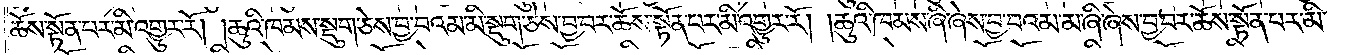ཆོས་སྟོན་པར་མི་འགྱུར་རོ། །ཆུའི་ཁམས་སྡུག་ཅེས་བྱ་བའམ་མི་སྡུག་ཅེས་བྱ་བར་ཆོས་སྟོན་པར་མི་འགྱུར་རོ། །ཆུའི་ཁམས་ཞི་ཞེས་བྱ་བའམ་མ་ཞི་ཞེས་བྱ་བར་ཆོས་སྟོན་པར་མི་
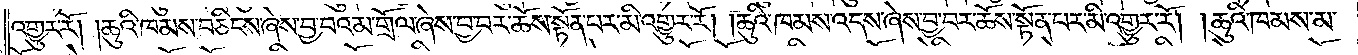འགྱུར་རོ། །ཆུའི་ཁམས་བཅིངས་ཞེས་བྱ་བའམ་གྲོལ་ཞེས་བྱ་བར་ཆོས་སྟོན་པར་མི་འགྱུར་རོ། །ཆུའི་ཁམས་འདས་ཞེས་བྱ་བར་ཆོས་སྟོན་པར་མི་འགྱུར་རོ། །ཆུའི་ཁམས་མ་
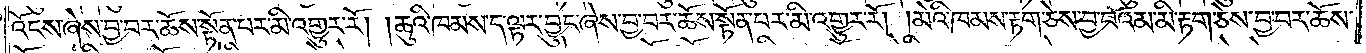འོངས་ཞེས་བྱ་བར་ཆོས་སྟོན་པར་མི་འགྱུར་རོ། །ཆུའི་ཁམས་ད་ལྟར་བྱུང་ཞེས་བྱ་བར་ཆོས་སྟོན་པར་མི་འགྱུར་རོ། །མེའི་ཁམས་རྟག་ཅེས་བྱ་བའམ་མི་རྟག་ཅེས་བྱ་བར་ཆོས་
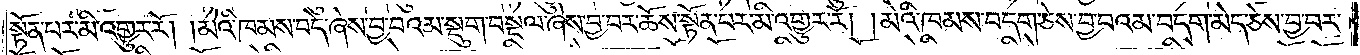སྟོན་པར་མི་འགྱུར་རོ། །མེའི་ཁམས་བདེ་ཞེས་བྱ་བའམ་སྡུག་བསྔལ་ཞེས་བྱ་བར་ཆོས་སྟོན་པར་མི་འགྱུར་རོ། །མེའི་ཁམས་བདག་ཅེས་བྱ་བའམ་བདག་མེད་ཅེས་བྱ་བར་
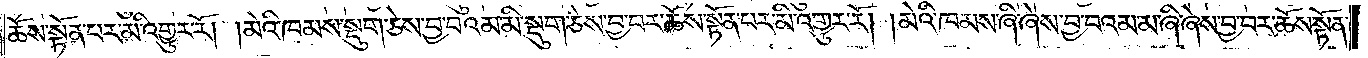ཆོས་སྟོན་པར་མི་འགྱུར་རོ། །མེའི་ཁམས་སྡུག་ཅེས་བྱ་བའམ་མི་སྡུག་ཅེས་བྱ་བར་ཆོས་སྟོན་པར་མི་འགྱུར་རོ། །མེའི་ཁམས་ཞི་ཞེས་བྱ་བའམ་མ་ཞི་ཞེས་བྱ་བར་ཆོས་སྟོན་
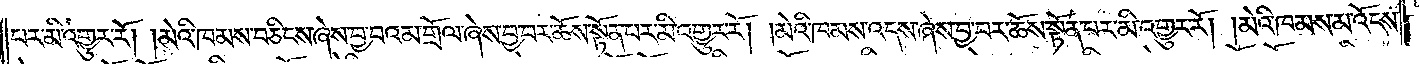པར་མི་འགྱུར་རོ། །མེའི་ཁམས་བཅིངས་ཞེས་བྱ་བའམ་གྲོལ་ཞེས་བྱ་བར་ཆོས་སྟོན་པར་མི་འགྱུར་རོ། །མེའི་ཁམས་འདས་ཞེས་བྱ་བར་ཆོས་སྟོན་པར་མི་འགྱུར་རོ། །མེའི་ཁམས་མ་འོངས་
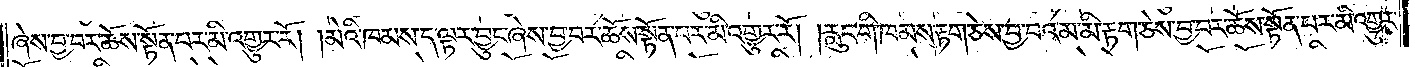ཞེས་བྱ་བར་ཆོས་སྟོན་པར་མི་འགྱུར་རོ། །མེའི་ཁམས་ད་ལྟར་བྱུང་ཞེས་བྱ་བར་ཆོས་སྟོན་པར་མི་འགྱུར་རོ། །རླུང་གི་ཁམས་རྟག་ཅེས་བྱ་བའམ་མི་རྟག་ཅེས་བྱ་བར་ཆོས་སྟོན་པར་མི་འགྱུར་
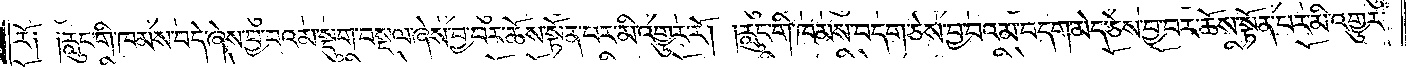རོ༑ ༑རླུང་གི་ཁམས་བདེ་ཞེས་བྱ་བའམ་སྡུག་བསྔལ་ཞེས་བྱ་བར་ཆོས་སྟོན་པར་མི་འགྱུར་རོ། །རླུང་གི་ཁམས་བདག་ཅེས་བྱ་བའམ་བདག་མེད་ཅེས་བྱ་བར་ཆོས་སྟོན་པར་མི་འགྱུར་
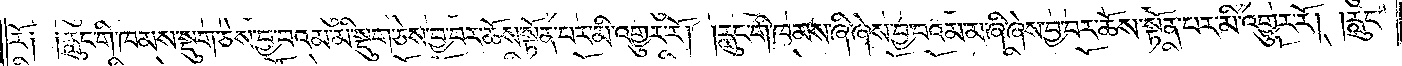རོ༑ ༑རླུང་གི་ཁམས་སྡུག་ཅེས་བྱ་བའམ་མི་སྡུག་ཅེས་བྱ་བར་ཆོས་སྟོན་པར་མི་འགྱུར་རོ། །རླུང་གི་ཁམས་ཞི་ཞེས་བྱ་བའམ་མ་ཞི་ཞེས་བྱ་བར་ཆོས་སྟོན་པར་མི་འགྱུར་རོ། །རླུང་
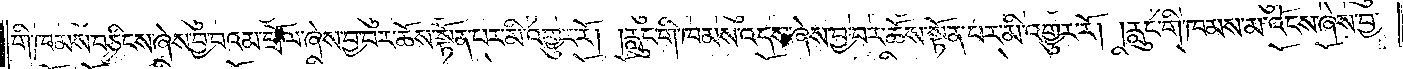གི་ཁམས་བཅིངས་ཞེས་བྱ་བའམ་གྲོལ་ཞེས་བྱ་བར་ཆོས་སྟོན་པར་མི་འགྱུར་རོ། །རླུང་གི་ཁམས་འདས་ཞེས་བྱ་བར་ཆོས་སྟོན་པར་མི་འགྱུར་རོ། །རླུང་གི་ཁམས་མ་འོངས་ཞེས་བྱ་
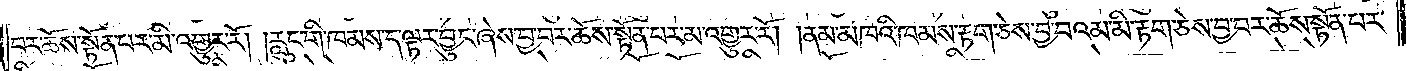བར་ཆོས་སྟོན་པར་མི་འགྱུར་རོ། །རླུང་གི་ཁམས་ད་ལྟར་བྱུང་ཞེས་བྱ་བར་ཆོས་སྟོན་པར་མི་འགྱུར་རོ། །ནམ་མཁའི་ཁམས་རྟག་ཅེས་བྱ་བའམ་མི་རྟག་ཅེས་བྱ་བར་ཆོས་སྟོན་པར་
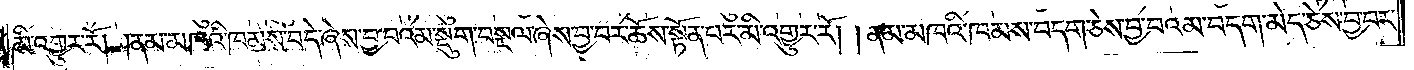མི་འགྱུར་རོ། །ནམ་མཁའི་ཁམས་བདེ་ཞེས་བྱ་བའམ་སྡུག་བསྔལ་ཞེས་བྱ་བར་ཆོས་སྟོན་པར་མི་འགྱུར་རོ། །ནམ་མཁའི་ཁམས་བདག་ཅེས་བྱ་བའམ་བདག་མེད་ཅེས་བྱ་བར་
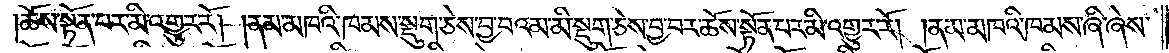ཆོས་སྟོན་པར་མི་འགྱུར་རོ། །ནམ་མཁའི་ཁམས་སྡུག་ཅེས་བྱ་བའམ་མི་སྡུག་ཅེས་བྱ་བར་ཆོས་སྟོན་པར་མི་འགྱུར་རོ། །ནམ་མཁའི་ཁམས་ཞི་ཞེས་
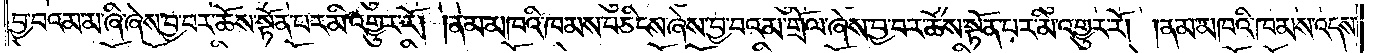བྱ་བའམ་མ་ཞི་ཞེས་བྱ་བར་ཆོས་སྟོན་པར་མི་འགྱུར་རོ། །ནམ་མཁའི་ཁམས་བཅིངས་ཞེས་བྱ་བའམ་གྲོལ་ཞེས་བྱ་བར་ཆོས་སྟོན་པར་མི་འགྱུར་རོ། །ནམ་མཁའི་ཁམས་འདས་
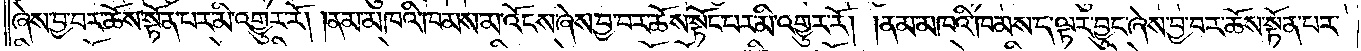ཞེས་བྱ་བར་ཆོས་སྟོན་པར་མི་འགྱུར་རོ། །ནམ་མཁའི་ཁམས་མ་འོངས་ཞེས་བྱ་བར་ཆོས་སྟོན་པར་མི་འགྱུར་རོ། །ནམ་མཁའི་ཁམས་ད་ལྟར་བྱུང་ཞེས་བྱ་བར་ཆོས་སྟོན་པར་
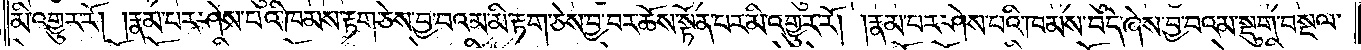མི་འགྱུར་རོ། །རྣམ་པར་ཤེས་པའི་ཁམས་རྟག་ཅེས་བྱ་བའམ་མི་རྟག་ཅེས་བྱ་བར་ཆོས་སྟོན་པར་མི་འགྱུར་རོ། །རྣམ་པར་ཤེས་པའི་ཁམས་བདེ་ཞེས་བྱ་བའམ་སྡུག་བསྔལ་
